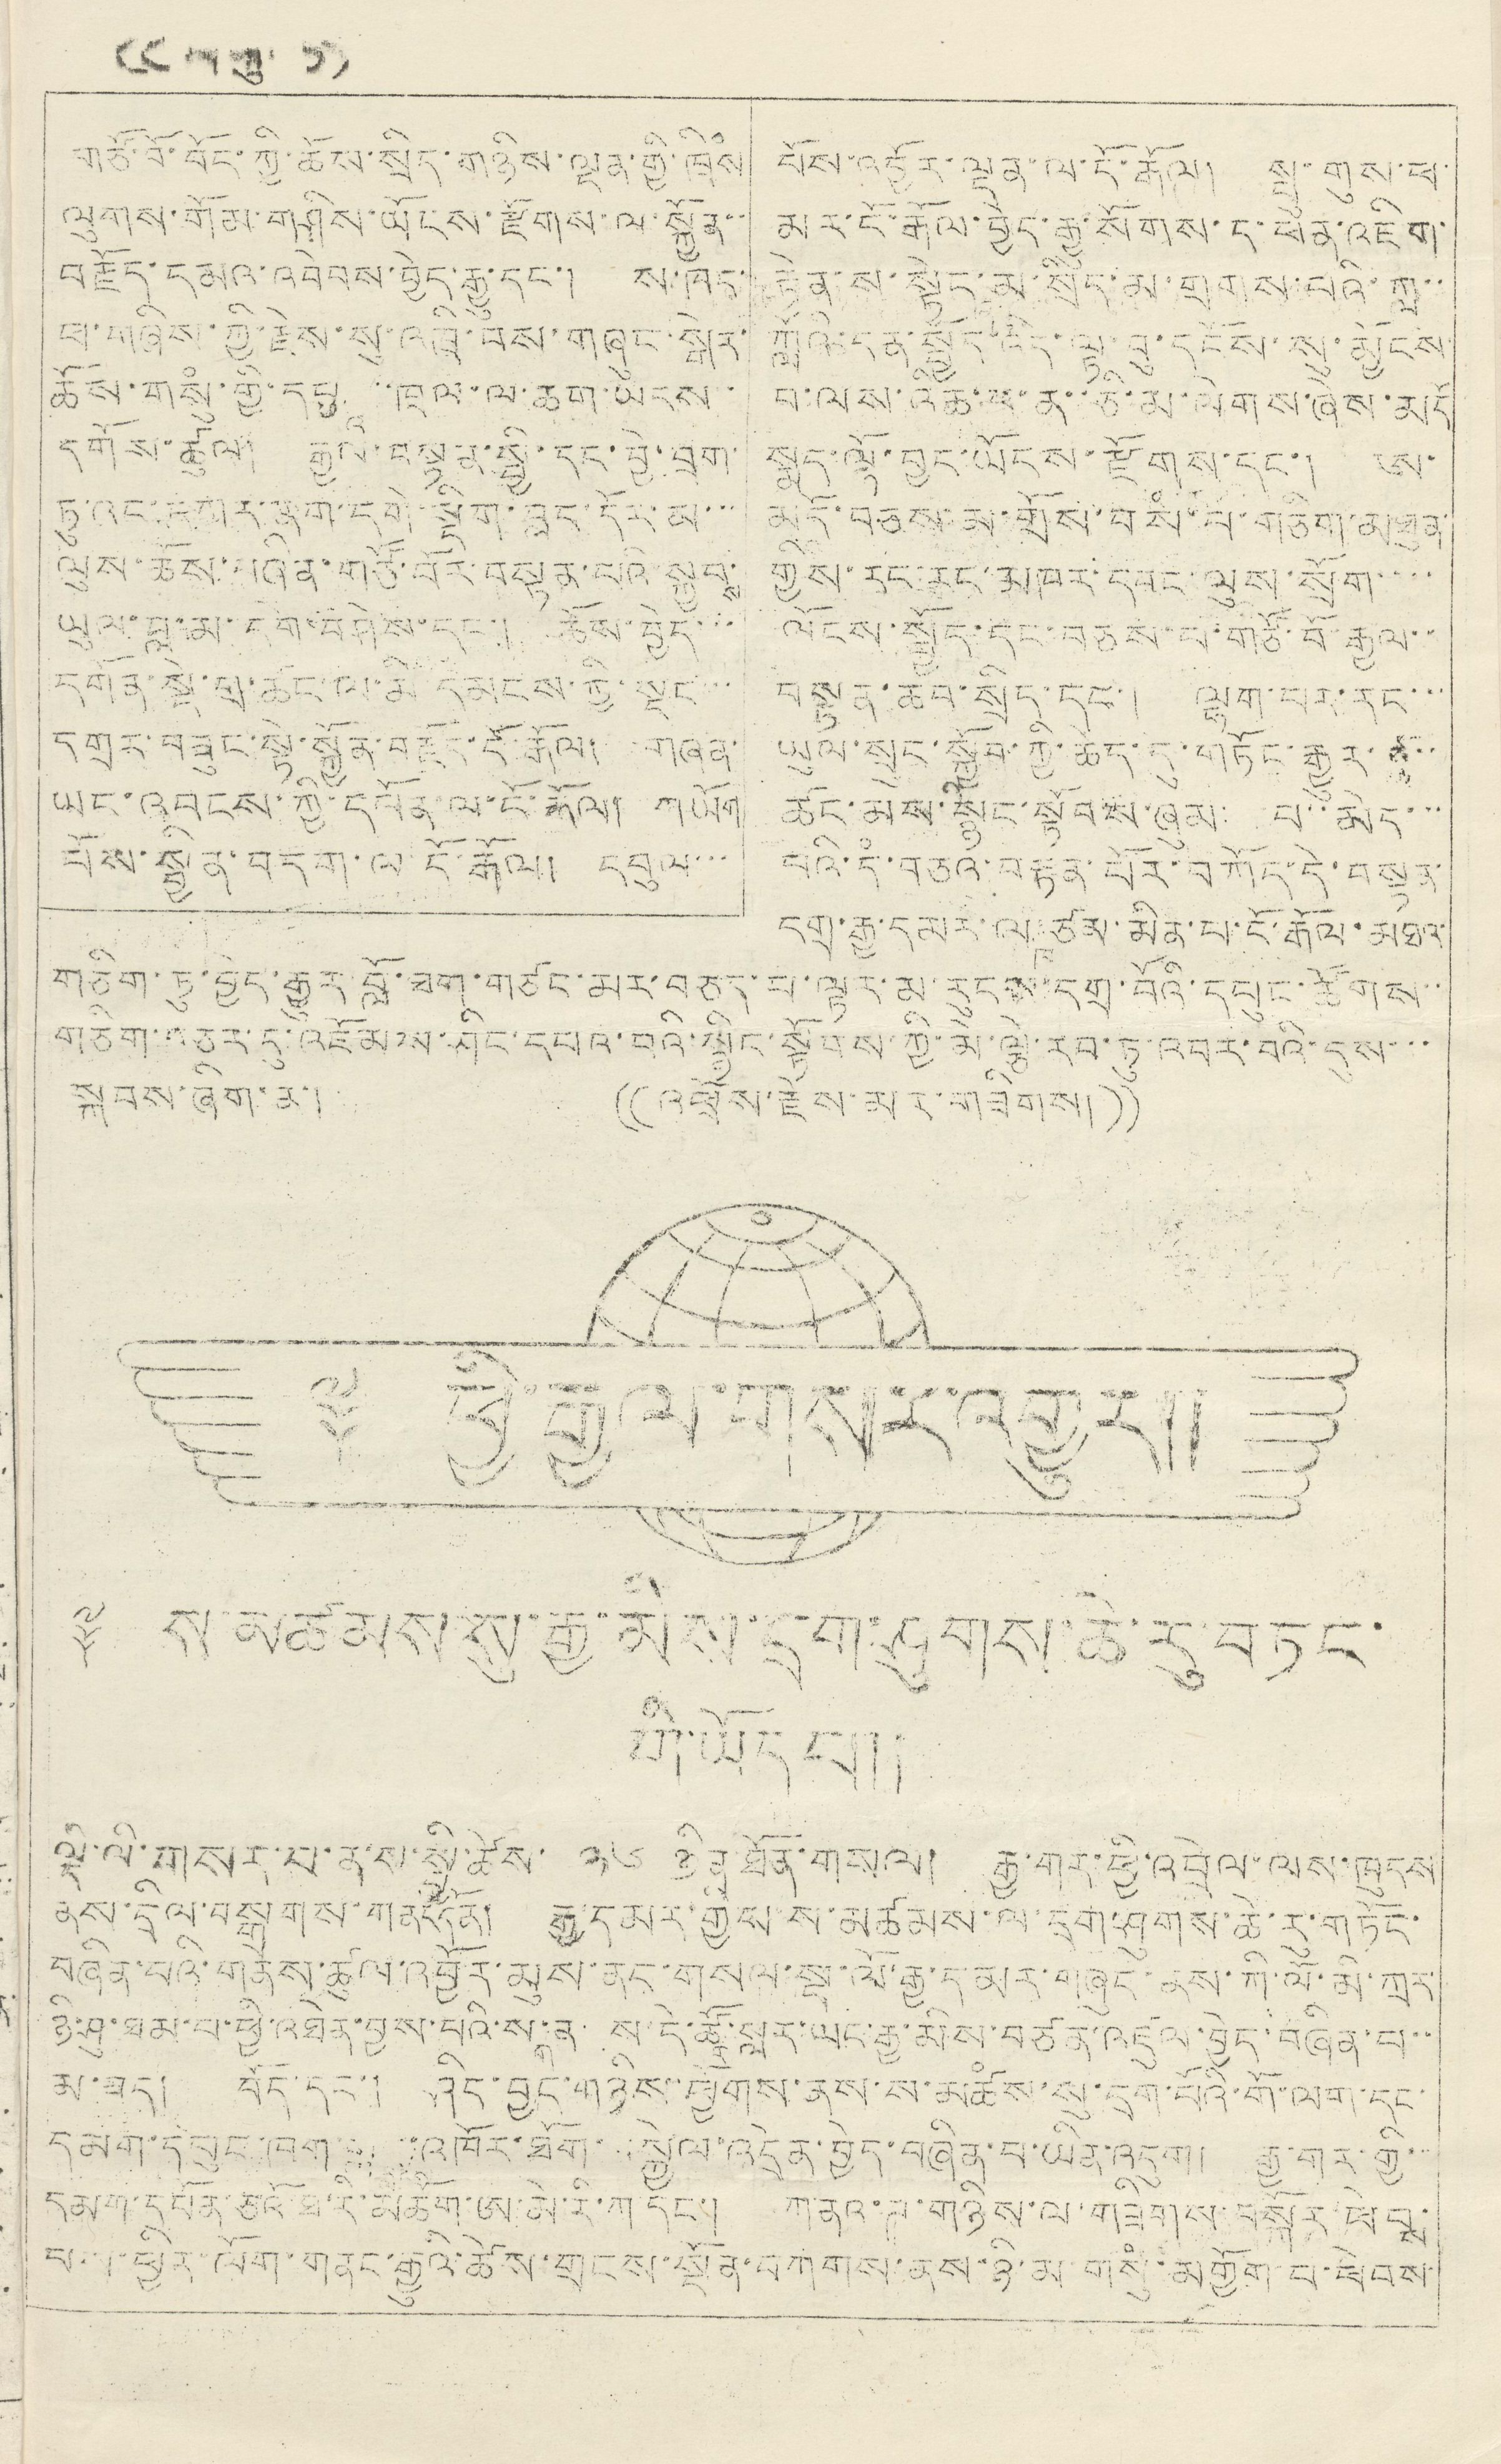(( དགུ་ ))
གཙོ་བོ་བོད་ཀྱི་ཆོས་སྲིད་གཉིས་ལྡན་གྱི་ཁྲིཾས
ལུགས་གོམ་གཤིས་ཡོངས་རྫོགས་ལ་སྐྱོན་་
བརྗོད་དམའ་འབེབས་བྱེད་རྒྱ་དང་། ས་ཁང་
ཕ་གཞིས་ཀྱི་རྗེས་སུ་འཁྲི་བས་གཞུང་སྒེར་
ཆོས་གསུཾ་གྱི་དབུ
འ
་་ཁྲལ་ལ་ཆག་ཡངས་་
དགོས་ཚུལ། རྒྱལ་བསྟན་སྤྱི་དང་བྱེ་བྲག་
ཏུ་འང་དགར་ནག་དགེ་སྡིག་བླང་དོར་མ་་་
ལུས་ཆོས་བཞིན་གཙོ་བོར་བསྟན་པའི་སྐྱབས་
ཡུལ་བླ་མ་དགེ་བཤེས་དང་། ཆོས་བྱེད་་་
དགོན་སྡེ་གྲ་ཚང་ལ་མི་དམངས་ཀྱི་སྡང་་་
དགྲར་བཟུང་སྟེ་སྐྱོན་བརྗོད་ངོ་རྒོལ། གཞན་
ཡང་འབངས་ཀྱི་དཔོན་ལ་ངོ་རྒོལ། གཡོག
པོས་སྦྱིན་བདག་ལ་ངོ་རྒོལ། དབུལ་་་
པོས་འབྱོར་ལྡན་ལ་ངོ་རྒོལ། སྤུ་གུས་ཕ་
མར་ངོ་རྒོལ་བྱེད་རྒྱུ་སོགས་ད་ཕོན་འཇིག་
རྟེན་ས་སྟེང་མ་སྲིད་མ་གྲགས་པའི་ཀླ་་
ཀློའི་དན་སྤྱོདའདི་ལྟ་བུ་དངོས་སུ་མྱོངས་
བ་ལས་འཆི་བ་ན་ཅི་མ་ལེགས་ཞེས་མདོ
སྨད་ལྟོ་བྱང་ཡོངས་རྫོགས་དང་། ཨ་
མདོ་བཅས་མ་གྲོས་བསཾ་པ་གཅིག་མཐུན་
གྱིས་རང་རང་མཁར་དབང་ལུས་སྲོག་་་་
ལོངས་སྤྱོད་དང་བཅས་པ་གཙོ་བོ་རྒྱལ་་
བསྟན་ཆབ་སྲིད་དང་། ལྷག་པར་རང་་་
ཡུལ་སྲུང་སྐྱོབ་ཀྱི་ཆེད་དུ་གཏོང་རྒྱུར་་་་
ཚང་མས་སྙིང་སྟོབས་ཞུམ་ པ་་མེད་་་
པའི་དཾ་བཅའ་བརྟན་པོར་བཀོད་དེ་བསྟན་
དགྲ་རྒྱ་དམར་ལ་
ཁ་
ཙམ་མིན་པ་ངོ་རྒོལ་མཐའ་
གཅིག་ཏུ་བྱེད་རྒྱུར་བློ་ཐག་གཙང་མར་བཅད་པ་ལྟར་མ་རུངས་དགྲ་བོའི་དཔུང་ཚོགས་་
གཅིག་བཅར་དུ་འཛོམས་ཤིང་དཔའ་བའི་སྙིང་སྟོབས་ཀྱི་མེ་ལྕེ་རབ་ཏུ་འབར་བའི་དུས་་་
སྐབས་ཞིག་ན་། (( འཕྲོས་རྫོས་མར་གཟིགས། ))
༈ ཕྱི་རྒྱལ་གསར་འགྱུར།།
༈ ས་མཚམས་སུ་རྒྱ་མིས་དྲག་ཤུགས་ཆེ་རུ་བཏང་
གི་ཡོད པ།།
ལྡི་ལི་གསར་ནས་སྤྱི་ཚེས་ ༢༦ ཉིན་ཐོག་གསལ། རྒྱ་གར་ཕྱི་འབྲེལ་ལས་ཁུངས
ནས་དྲིལ་བསྒྲགས་གནང་དོན། རྒྱ་དམར་གྱིས་ས་མཚམས་ལ་དྲག་ཤུགས་ཆེ་རུ་གཏོང་
བཞིན་པའི་གནས་ཚུལ་འབྱོར་མུས་ནང་གསལ་སྡ་ལོ་རྒྱ་དམར་གཞུང་ནས་ཀི་ལོ་མི་ཀྲར་
ཉི་ཤུ་ཐམ་པ་ཕྱི་འཐེན་བྱས་པའི་ས
ག
་ན ས་དེ་ཚོ
ར་
སླར་ཡང་རྒྱ་མིས་བཙན་འཛུལ་བྱེད་བཞིན་པ་་
མ་ཟད། བོད་དང་། ཤིང་བྱང་གཉིས་ཕྱོགས་ནས་ས་མཚཾས་སུ་དྲག་པོའི་གོ་ལག་དང་
དམག་དཔུང་ཁག་གླ ་འཁོར་ཐོག་ སྐྱེལ་འདྲེན་བྱེད་བཞིན་པ་ཡིན་འདུག། རྒྱ་གར་གྱི་་
དམག་དཔོན་ཅའོ་ཐ་རི་མཆོག་ཨ་མེ་རི་ཀ་དང་། ཀ་ནའ་ཊ་གཉིས་ལ་གཟིགས་བསྐོར་ཕེབས་
པས་ཕྱིར་ལོག་གནང་རྒྱུའི་ཚེས་གྲངས་སྔོན་བཀགས་ནས་ཉི་མ་གསུཾ་མགྱོག པ་ཕེབས་
